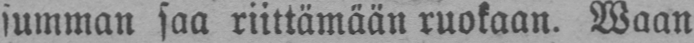summan saa riittämään ruokaan. Waan
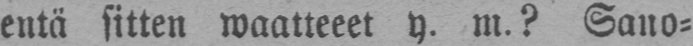entä sitten waatteeet y. m.? Sano-
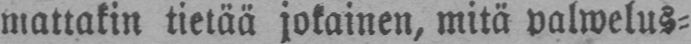mattakin tietää jokainen, mitä palwelus-
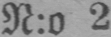N:o 2
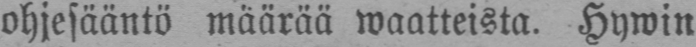ohjesääntö määrää waatteista. Hywin
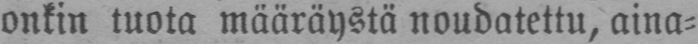onkin tuota määräystä noudatettu, aina-
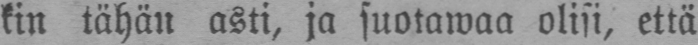kin tähän asti, ja suotawaa olisi, että
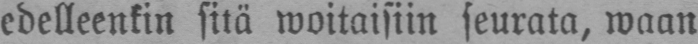edelleenkin sitä woitaisiin seurata, waan
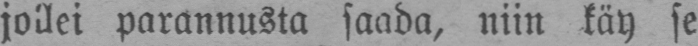jollei parannusta saada, niin käy se
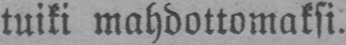tuiki mahdottomaksi.
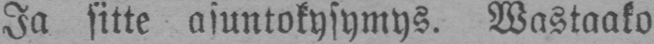Ja sitte asuntokysymys. Wastaako
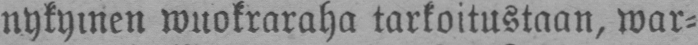nykymen wuokraraha tarkoitustaan, war-
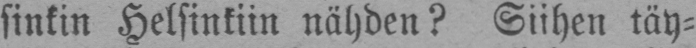sinkin Helsinkiin nähden? Siihen täy-
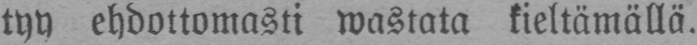tyy ehdottomasti wastata kieltämällä.
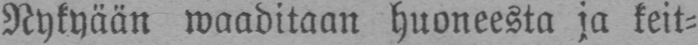Nykyään waaditaan huoneesta ja keit-
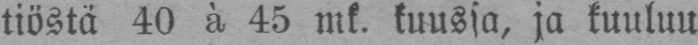tiöstä 40 à 45 mk. kuussa, ja kuuluu
